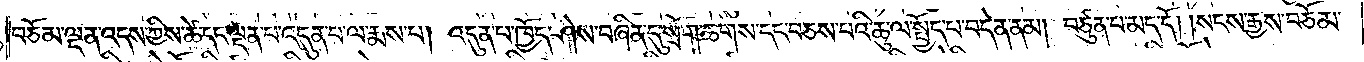བཅོམ་ལྡན་འདས་ཀྱིས་ཚེ་དང་ལྡན་པ་འདུན་པ་ལ་རྨས་པ། འདུན་པ་ཁྱོད་ཤེས་བཞིན་དུ་སྲོག་ཆགས་དང་བཅས་པའི་ཆུ་ལ་སྤྱོད་པ་བདེན་ནམ། བཙུན་པ་མད་དོ། །སངས་རྒྱས་བཅོམ་
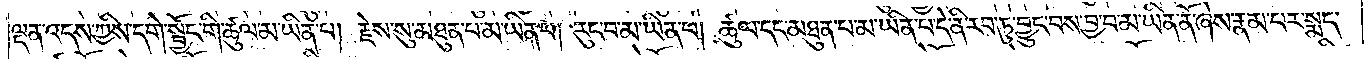ལྡན་འདས་ཀྱིས་དགེ་སྦྱོང་གི་ཚུལ་མ་ཡིན་པ། རྗེས་སུ་མཐུན་པ་མ་ཡིན་པ། རུང་བ་མ་ཡིན་པ། ཚུལ་དང་མཐུན་པ་མ་ཡིན་པ་དེ་ནི་རབ་ཏུ་བྱུང་བས་བྱ་བ་མ་ཡིན་ནོ་ཞེས་རྣམ་པར་སྨད་
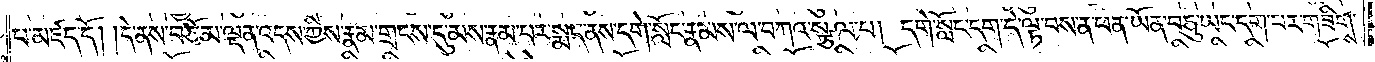པ་མཛད་དོ། །དེ་ནས་བཅོམ་ལྡན་འདས་ཀྱིས་རྣམ་གྲངས་དུ་མས་རྣམ་པར་སྨད་ནས་དགེ་སློང་རྣམས་ལ་བཀའ་སྩལ་པ། དགེ་སློང་དག་དེ་ལྟ་བས་ན་ཕན་ཡོན་བཅུ་ཡང་དག་པར་གཟིགས་
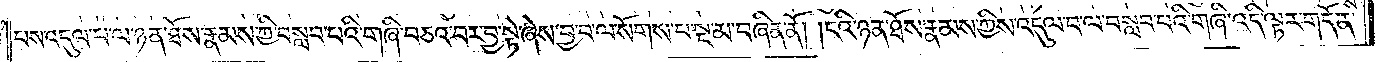པས་འདུལ་བ་ལ་ཉན་ཐོས་རྣམས་ཀྱི་བསླབ་པའི་གཞི་བཅའ་བར་བྱ་སྟེ་ཞེས་བྱ་བ་ལ་སོགས་པ་སྔ་མ་བཞིན་ནོ། །ངའི་ཉན་ཐོས་རྣམས་ཀྱིས་འདུལ་བ་ལ་བསླབ་པའི་གཞི་འདི་ལྟར་གདོན་
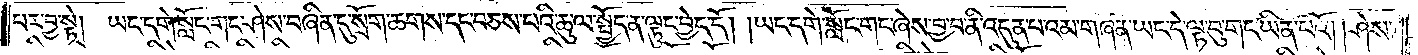པར་བྱ་སྟེ། ཡང་དགེ་སློང་གང་ཤེས་བཞིན་དུ་སྲོག་ཆགས་དང་བཅས་པའི་ཆུ་ལ་སྤྱོད་ན་ལྟུང་བྱེད་དོ། །ཡང་དགེ་སློང་གང་ཞེས་བྱ་བ་ནི་འདུན་པའམ་གཞན་ཡང་དེ་ལྟ་བུ་གང་ཡིན་པའོ། །ཤེས་
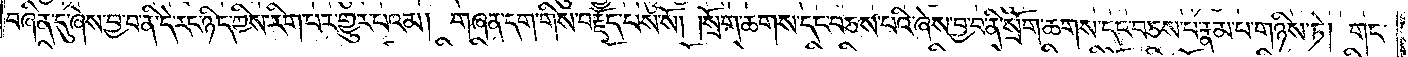བཞིན་དུ་ཞེས་བྱ་བ་ནི་དེ་རང་ཉིད་ཀྱིས་རིག་པར་གྱུར་པའམ། གཞན་དག་གིས་བརྗོད་པས་སོ། །སྲོག་ཆགས་དང་བཅས་པའི་ཞེས་བྱ་བ་ནི་སྲོག་ཆགས་དང་བཅས་པ་རྣམ་པ་གཉིས་ཏེ། གང་
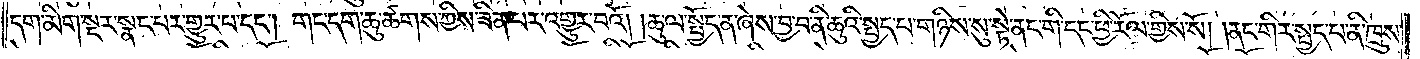དག་མིག་སྔར་སྣང་བར་གྱུར་པ་དང༌། གང་དག་ཆུ་ཚགས་ཀྱིས་ཟིན་པར་འགྱུར་བའོ། །ཆུ་ལ་སྤྱོད་ན་ཞེས་བྱ་བ་ནི་ཆུའི་སྤྱད་པ་གཉིས་སུ་སྟེ་ནང་གི་དང་ཕྱི་རོལ་གྱིས་སོ། །ནང་གིར་སྤྱད་པ་ནི་ཁྲུས་
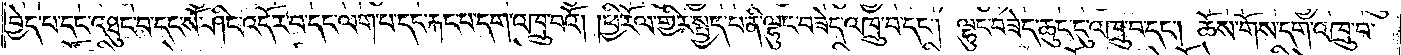བྱེད་པ་དང་འཐུང་བ་དང་སོ་ཤིང་འདོར་བ་དང་ལག་པ་དང་རྐང་པ་དག་འཁྲུ་བའོ། །ཕྱི་རོལ་གྱིར་སྤྱད་པ་ནི་ལྷུང་བཟེད་འཁྲུ་བ་དང༌། ལྷུང་བཟེད་ཆུང་ངུ་འཁྲུ་བ་དང༌། ཆོས་གོས་དག་འཁྲུ་བ་
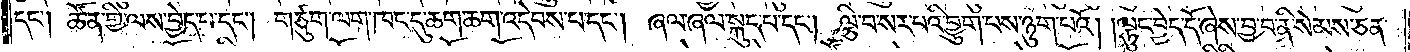དང༌། ཚོན་གྱི་ལས་བྱེད་པ་དང༌། གཙུག་ལག་ཁང་དུ་ཆག་ཆག་འདེབས་པ་དང༌། ཞལ་ཞལ་སྐུད་པ་དང༌། ལྕི་བ་སར་པའི་བྱུག་པས་ཉུག་པའོ། །ལྟུང་བྱེད་དོ་ཞེས་བྱ་བ་ནི་སེམས་ཅན་
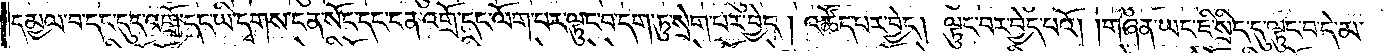དམྱལ་བ་དང་དུད་འགྲོ་དང་ཡི་དྭགས་ངན་སོང་དང་ངན་འགྲོ་དང་ལོག་པར་ལྟུང་བ་དག་ཏུ་སྲེག་པར་བྱེད། འཚོད་པར་བྱེད། ལྟུང་བར་བྱེད་པའོ། །གཞན་ཡང་ཇི་སྲིད་དུ་ལྟུང་བ་དེ་མ་
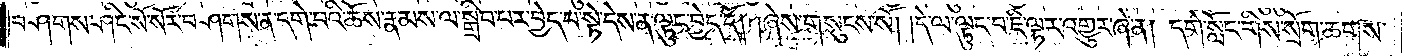བཤགས་ཤིང་སོ་སོར་བཤགས་ན་དགེ་བའི་ཆོས་རྣམས་ལ་སྒྲིབ་པར་བྱེད་པ་སྟེ་དེས་ན་ལྟུང་བྱེད་དོ། །ཞེས་གསུངས་སོ། །དེ་ལ་ལྟུང་བ་ཇི་ལྟར་འགྱུར་ཞེ་ན། དགེ་སློང་གིས་སྲོག་ཆགས་
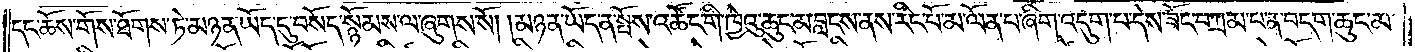དང་ཆོས་གོས་ཐོགས་ཏེ་མཉན་ཡོད་དུ་བསོད་སྙོམས་ལ་ཞུགས་སོ། །མཉན་ཡོད་ན་སྤོས་འཚོང་གི་ཁྱེའུ་ཆུང་མ་བླངས་ནས་རིང་པོ་མ་ལོན་པ་ཞིག་འདུག་པ་དེས་ཟོང་བཀྲམ་པ་ན་བདག་ཆུང་མ་
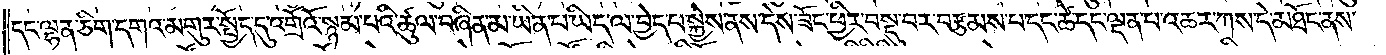དང་ལྷན་ཅིག་དགའ་མགུར་སྤྱོད་དུ་འགྲོའོ་སྙམ་པའི་ཚུལ་བཞིན་མ་ཡིན་པ་ཡིད་ལ་བྱེད་པ་སྐྱེས་ནས་དེས་ཟོང་ཕྱིར་བསྡུ་བར་བརྩམས་པ་དང་ཚེ་དང་ལྡན་པ་འཆར་ཀས་དེ་མཐོང་ནས་
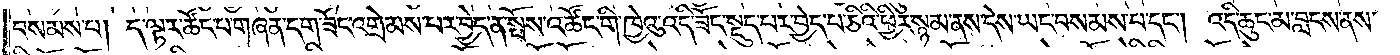བསམས་པ། ད་ལྟར་ཚོང་པ་གཞན་དག་ཟོང་འགྲེམས་པར་བྱེད་ན་སྤོས་འཚོང་གི་ཁྱེའུ་འདི་ཟོང་སྡུད་པར་བྱེད་པ་ཅིའི་ཕྱིར་སྙམ་ནས་དེས་ཡང་བསམས་པ་དང༌། འདི་ཆུང་མ་བླངས་ནས་
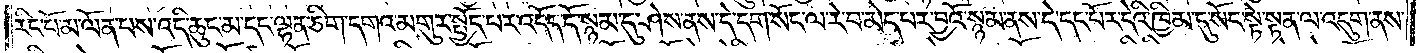རིང་པོ་མ་ལོན་པས་འདི་ཆུང་མ་དང་ལྷན་ཅིག་དགའ་མགུར་སྤྱོད་པར་འདོད་དོ་སྙམ་དུ་ཤེས་ནས་དེ་དག་སོང་ལ་རེ་བ་མེད་པར་བྱའོ་སྙམ་ནས་དེ་དང་པོར་དེའི་ཁྱིམ་དུ་སོང་སྟེ་སྟན་ལ་འདུག་ནས་
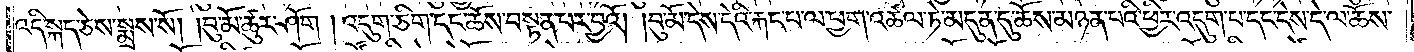འདི་སྐད་ཅེས་སྨྲས་སོ། །བུ་མོ་ཚུར་ཤོག །འདུག་ཅིག་དང་ཆོས་བསྟན་པར་བྱའོ། །བུ་མོ་དེས་དེའི་རྐང་པ་ལ་ཕྱག་འཚལ་ཏེ་མདུན་དུ་ཆོས་མཉན་པའི་ཕྱིར་འདུག་པ་དང་དེས་དེ་ལ་ཆོས་
